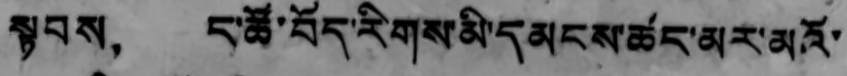སྟབས， ང་ཚོ་བོད་རིགས་མི་དམངས་ཚང་མར་མའོ་
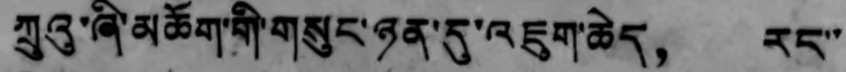ཀྲུའུ་ཞི་མཆོག་གི་གསུང་ཉན་དུ་འཇུག་ཆེད， རང་
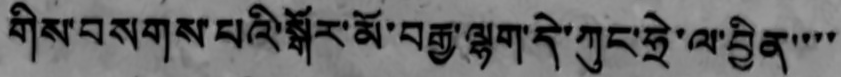གིས་བསགས་པའི་སྒོར་མོ་བརྒྱ་ལྷག་དེ་ཀུང་ཧྲེ་ལ་བྱིན་་་་་
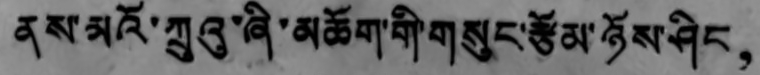ནས་མའོ་ཀྲུའུ་ཞི་མཆོག་གི་གསུང་རྩོམ་ཉོས་ཤིང，
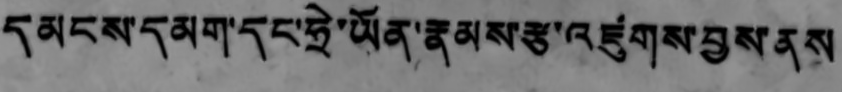དམངས་དམག་དང་ཧྲེ་ཡོན་རྣམས་རྩ་འཛུགས་བྱས་ནས
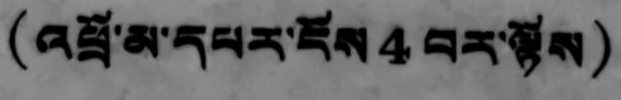(འཕྲོ་མ་དཔར་ངོས 4 བར་ལྟོས)
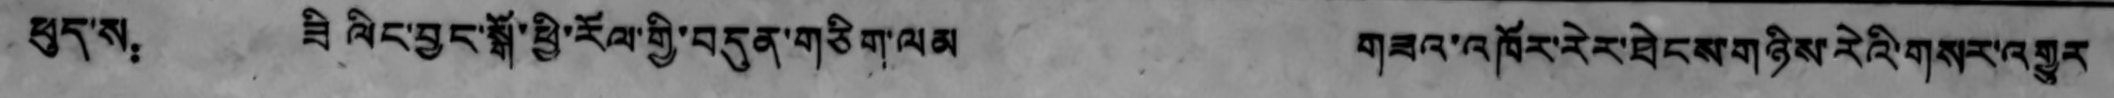ཕུད་ས： ཟི ལིང་བྱང་སྒོ་ཕྱི་རོལ་གྱི་བདུན་གཅིག་ལམ གཟའ་འཁོར་རེར་ཐེངས་གཉིས་རེའི་གསར་འགྱུར
